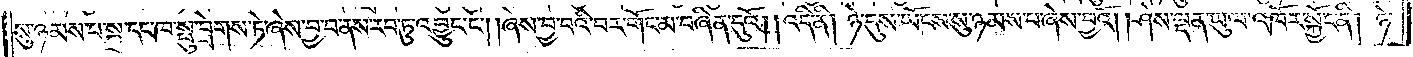སུ་ཉམས་པ་སྐྲ་དང་ཁ་སྤུ་བྲེགས་ཏེ་ཞེས་བྱ་བ་ནས་རབ་ཏུ་འབྱུང་ངོ༌། །ཞེས་བྱ་བའི་བར་གོང་མ་བཞིན་དུའོ། །འདི་ནི། ཉེ་དུས་ཡོངས་སུ་ཉམས་པ་ཞེས་བྱའོ། །ཤེས་ལྡན་ཡུལ་འཁོར་སྐྱོང་ནི། ཉེ་
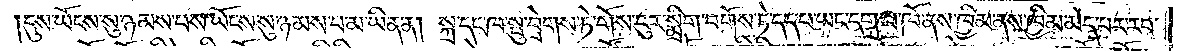དུས་ཡོངས་སུ་ཉམས་པས་ཡོངས་སུ་ཉམས་པ་མ་ཡིན་ན། སྐྲ་དང་ཁ་སྤུ་བྲེགས་ཏེ་གོས་ངུར་སྨྲིག་བགོས་ཏེ་དད་པ་ཡང་དག་པ་ཁོ་ནས་ཁྱིམ་ནས་ཁྱིམ་མེད་པར་རབ་
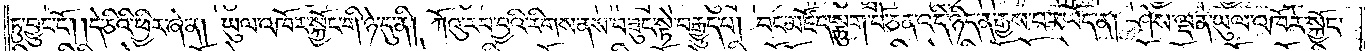ཏུ་བྱུང་ངོ༌། །དེ་ཅིའི་ཕྱིར་ཞེ་ན། ཡུལ་འཁོར་སྐྱོང་གི་ཉེ་དུ་ནི། ཀོའུ་རབ་བྱའི་རིགས་ནས་བཟུང་སྟེ་བརྒྱུད་པ། བང་མཛོད་སྟུག་པོ་ཅན་འདི་ཉིད་ན་རྒྱས་པར་ཡོད་ན། ཤེས་ལྡན་ཡུལ་འཁོར་སྐྱོང་
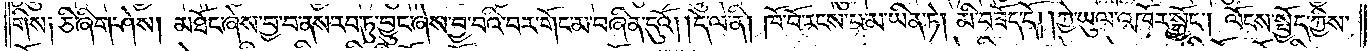གིས། ཅི་ཞིག་ཤེས། མཐོང་ཞེས་བྱ་བ་ནས་རབ་ཏུ་བྱུང་ཞེས་བྱ་བའི་བར་གོང་མ་བཞིན་དུའོ། །དེ་ལ་ནི། ཁོ་བོ་རངས་པ་མ་ཡིན་ཏེ། མི་བཟོད་དོ། །ཀྱེ་ཡུལ་འཁོར་སྐྱོང༌། ལོངས་སྤྱོད་ཀྱིས་
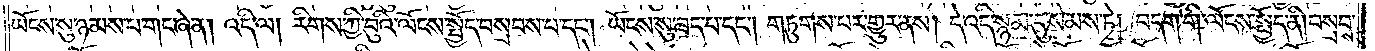ཡོངས་སུ་ཉམས་པ་གང་ཞེ་ན། འདི་ལ། རིགས་ཀྱི་བུའི་ལོངས་སྤྱོད་བསྲབས་པ་དང༌། ཡོངས་སུ་ཟད་པ་དང༌། གཏུགས་པར་གྱུར་ནས། དེ་འདི་སྙམ་དུ་སེམས་ཏེ། བདག་གི་ལོངས་སྤྱོད་ནི། བསྲབས་
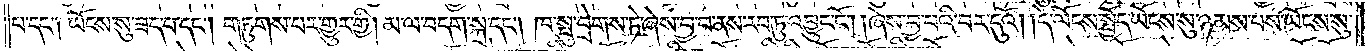པ་དང༌། ཡོངས་སུ་ཟད་པ་དང༌། གཏུགས་པར་གྱུར་གྱི། མ་ལ་བདག་སྐྲ་དང༌། ཁ་སྤུ་བྲེགས་ཏེ་ཞེས་བྱ་བ་ནས་རབ་ཏུ་འབྱུང་ངོ༌། །ཞེས་བྱ་བའི་བར་དུའོ། །དེ་ལོངས་སྤྱོད་ཡོངས་སུ་ཉམས་པས་ཡོངས་སུ་
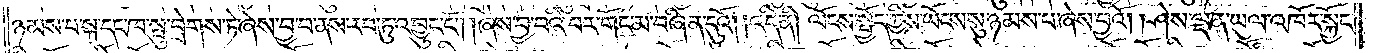ཉམས་པ་སྐྲ་དང་ཁ་སྤུ་བྲེགས་ཏེ་ཞེས་བྱ་བ་ནས་རབ་ཏུ་འབྱུང་ངོ༌། །ཞེས་བྱ་བའི་བར་གོང་མ་བཞིན་དུའོ། །འདི་ནི། ལོངས་སྤྱོད་ཀྱིས་ཡོངས་སུ་ཉམས་པ་ཞེས་བྱའོ། །ཤེས་ལྡན་ཡུལ་འཁོར་སྐྱོང་
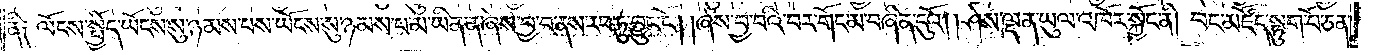ནི། ལོངས་སྤྱོད་ཡོངས་སུ་ཉམས་པས་ཡོངས་སུ་ཉམས་པ་མ་ཡིན་ན་ཞེས་བྱ་བ་ནས་རབ་ཏུ་བྱུང་ངོ༌། །ཞེས་བྱ་བའི་བར་གོང་མ་བཞིན་དུའོ། །ཤེས་ལྡན་ཡུལ་འཁོར་སྐྱོང་ནི། བང་མཛོད་སྟུག་པོ་ཅན་
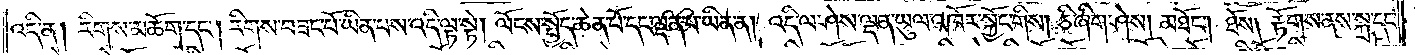འདི་ན། རིགས་མཆོག་དང༌། རིགས་བཟང་པོ་ཡིན་པས་འདི་ལྟ་སྟེ། ལོངས་སྤྱོད་ཆེན་པོ་དང་ལྡན་པ་ཡིན་ན། འདི་ལ་ཤེས་ལྡན་ཡུལ་འཁོར་སྐྱོང་གིས། ཅི་ཞིག་ཤེས། མཐོང༌། ཐོས། རྟོགས་ནས་སྐྲ་དང་
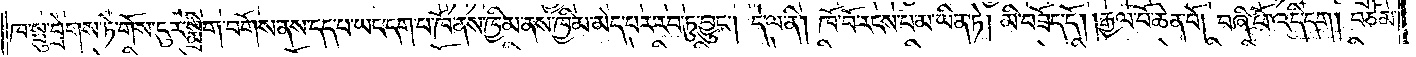ཁ་སྤུ་བྲེགས་ཏེ་གོས་ངུར་སྨྲིག་བགོས་ནས་དད་པ་ཡང་དག་པ་ཁོ་ནས་ཁྱིམ་ནས་ཁྱིམ་མེད་པར་རབ་ཏུ་བྱུང༌། དེ་ལ་ནི། ཁོ་བོ་རངས་པ་མ་ཡིན་ཏེ། མི་བཟོད་དོ། །རྒྱལ་པོ་ཆེན་པོ། བཞི་པོ་འདི་དག །བཅོམ་
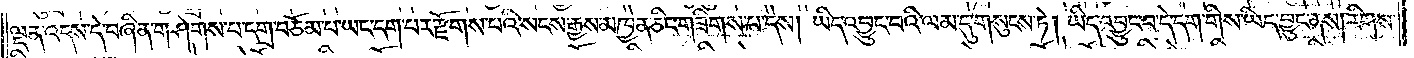ལྡན་འདས་དེ་བཞིན་གཤེགས་པ་དགྲ་བཅོམ་པ་ཡང་དག་པར་རྫོགས་པའི་སངས་རྒྱས་མཁྱེན་ཅིང་གཟིགས་པ་དེས། ཡིད་འབྱུང་བའི་ལམ་དུ་གསུངས་ཏེ། ཡིད་འབྱུང་བ་དེ་དག་གིས་ཡིད་བྱུང་ནས། རིགས་
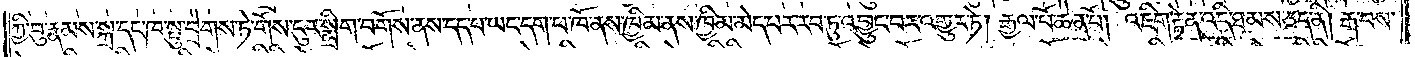ཀྱི་བུ་རྣམས་སྐྲ་དང་ཁ་སྤུ་བྲེགས་ཏེ་གོས་ངུར་སྨྲིག་བགོས་ནས་དད་པ་ཡང་དག་པ་ཁོ་ནས་ཁྱིམ་ནས་ཁྱིམ་མེད་པར་རབ་ཏུ་འབྱུང་བར་འགྱུར་ཏེ། རྒྱལ་པོ་ཆེན་པོ། འཇིག་རྟེན་འདི་ཐམས་ཅད་ནི། རྒ་བས་
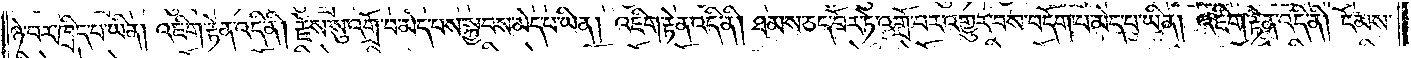ཉེ་བར་ཁྲིད་པ་ཡིན། འཇིག་རྟེན་འདི་ནི། རྗེས་སུ་འགྲོ་བ་མེད་པས་སྐྱབས་མེད་པ་ཡིན། འཇིག་རྟེན་འདི་ནི། ཐམས་ཅད་བོར་ཏེ་འགྲོ་བར་འགྱུར་བས་བདོག་པ་མེད་པ་ཡིན། འཇིག་རྟེན་འདི་ནི། ངོམས་
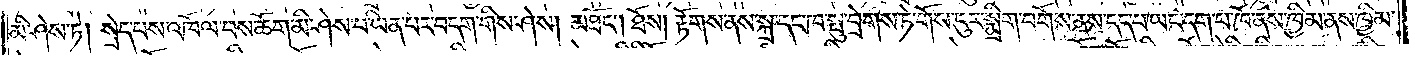མི་ཤེས་ཏེ། སྲེད་པས་འཁོལ་བས་ཆོག་མི་ཤེས་པ་ཡིན་པར་བདག་གིས་ཤེས། མཐོང༌། ཐོས། རྟོགས་ནས་སྐྲ་དང་ཁ་སྤུ་བྲེགས་ཏེ་གོས་ངུར་སྨྲིག་བགོས་ནས་དད་པ་ཡང་དག་པ་ཁོ་ནས་ཁྱིམ་ནས་ཁྱིམ་
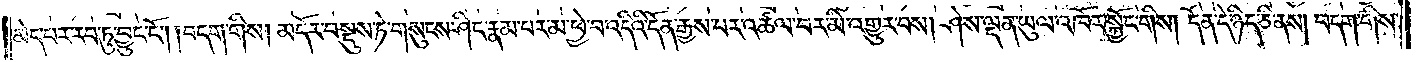མེད་པར་རབ་ཏུ་བྱུང་ངོ༌། །བདག་གིས། མདོར་བསྡུས་ཏེ་གསུངས་ཤིང་རྣམ་པར་མ་ཕྱེ་བ་འདིའི་དོན་རྒྱས་པར་འཚལ་བར་མི་འགྱུར་བས། ཤེས་ལྡན་ཡུལ་འཁོར་སྐྱོང་གིས། དོན་དེ་ཉིད་ཅི་ནས། བདག་གིས་
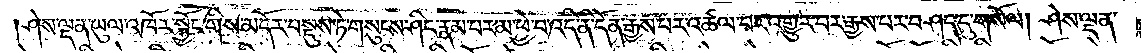།ཤེས་ལྡན་ཡུལ་འཁོར་སྐྱོང་གིས་མདོར་བསྡུས་ཏེ་གསུངས་ཤིང་རྣམ་པར་མ་ཕྱེ་བ་འདི་ནི་དོན་རྒྱས་པར་འཚལ་བར་འགྱུར་བར་རྒྱས་པར་བཤད་དུ་གསོལ། ཤེས་ལྡན་
